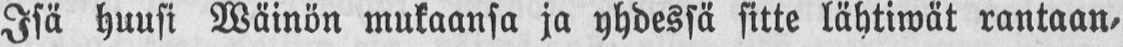Isä huusi Wäinön mukaansa ja yhdessä sitte lähtiwät rantaan,
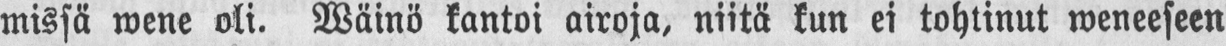missä wene oli. Wäinö kantoi airoja, niitä kun ei tohtinut weneeseen
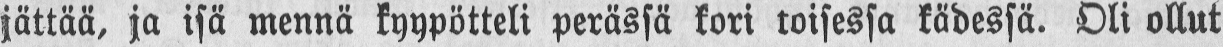jättää, ja isä mennä kyypötteli perässä kori toisessa kädessä. Oli ollut
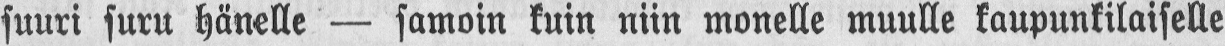suuri suru hänelle — samoin kuin niin monelle muulle kaupunkilaiselle
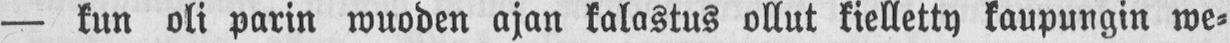— kun oli parin wuoden ajan kalastus ollut kielletty kaupungin we-
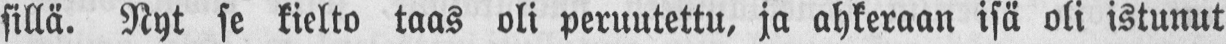sillä. Nyt se kielto taas oli peruutettu, ja ahkeraan isä oli istunut
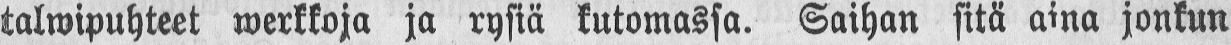talwipuhteet werkkoja ja rysiä kutomassa. Saihan sitä aina jonkun
